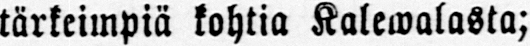tärkeimpiä kohtia Kalewalasta;
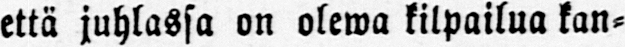että juhlassa on olewa kilpailua kan-
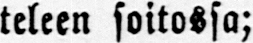teleen soitossa;
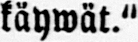käywät."
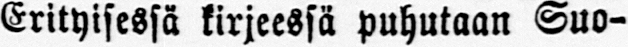Erityisessä kirjeessä puhutaan Suo-
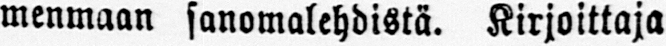menmaan sanomalehdistä. Kirjoittaja
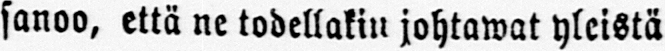sanoo, että ne todellakin johtawat yleistä
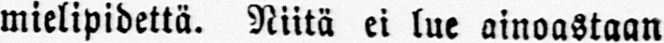mielipidettä. Niitä ei lue ainoastaan
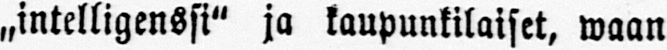„intelligenssi" ja kaupunkilaiset, waan
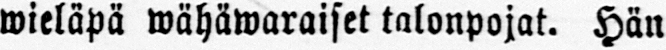wieläpä wähäwaraiset talonpojat. Hän
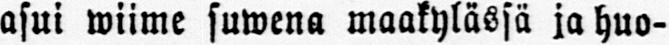asui wiime suwena maakylässä ja huo-
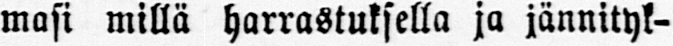masi millä harrastuksella ja jännityk-
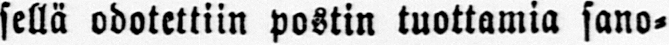sellä odotettiin postin tuottamia sano-
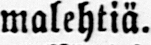malehtiä.
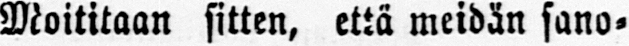Moititaan sitten, että meidän sano-
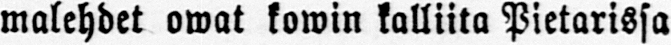malehdet owat kowin kalliita Pietarissa
